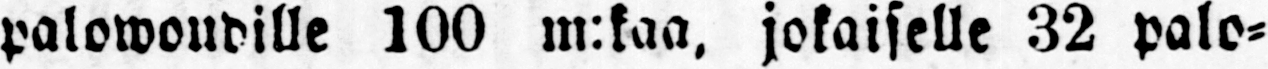palowoudille 100 m:kaa, jokaiselle 32 palo-
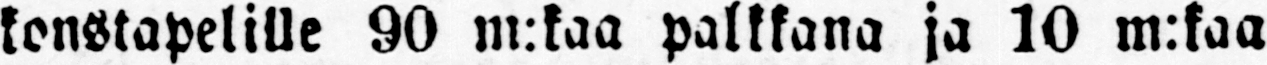kenstapelille 90 m:kaa palkkana ja 10 m:kaa
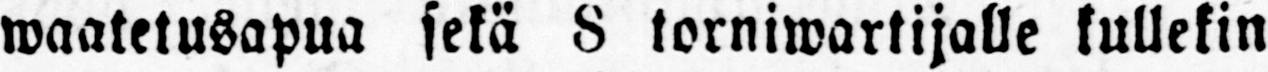waatetusapua sekä 8 torniwartijalle kullekin
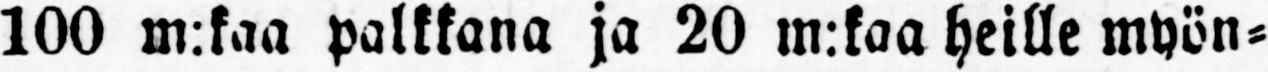100 m:kaa palkkana ja 20 m:kaa heille myön-
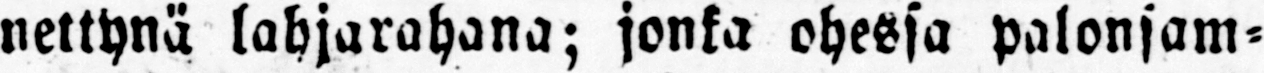nettynä lahjarahana; jonka ohessa palonsam-
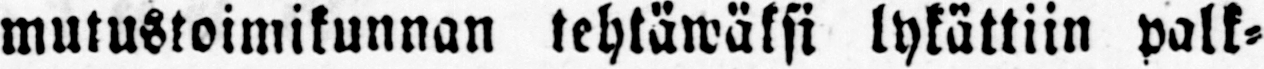mutustoimikunnan tehtäwäksi lykättiin palk-
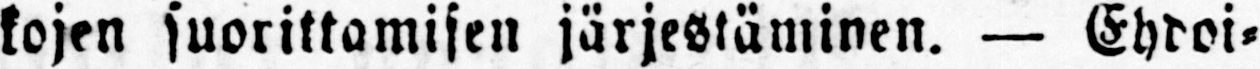kojen suorittamisen järjestäminen. — Ehdoi-
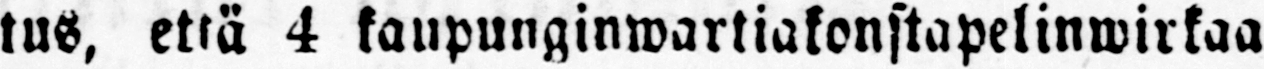tus, että 4 kaupunginwartiakonstapelinwirkaa
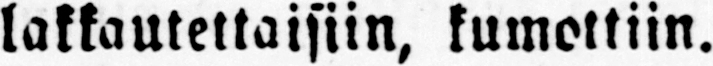lakkautettaisiin, kumottiin.
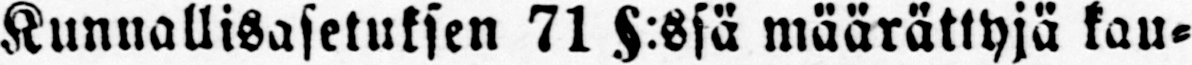Kunnallisasetuksen 71 §:ssä määrättyjä kau-
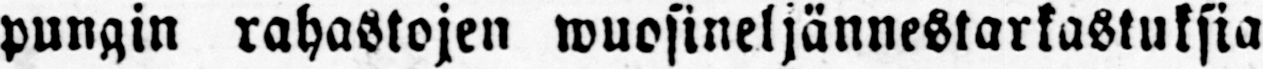pungin rahastojen wuosineljännestarkastuksia
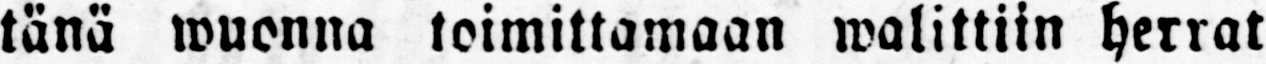tänä wuonna toimittamaan walittiin herrat
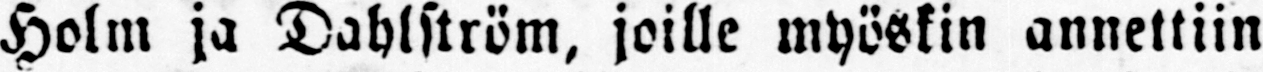Holm ja Dahlström, joille myöskin annettiin
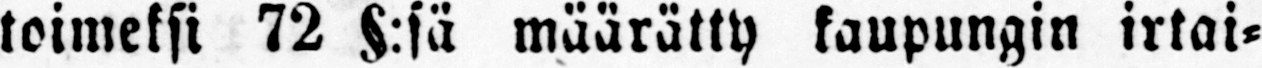toimeksi 72 §:sä määrätty kaupungin irtai-
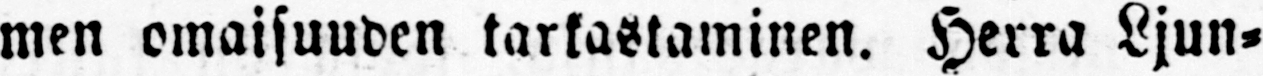men omaisuuden tarkastaminen. Herra Ljun-
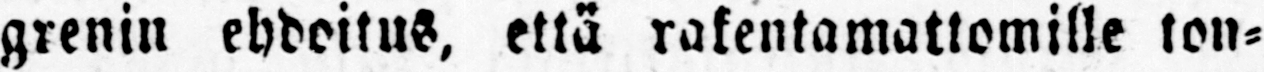grenin ehdoitus, että rakentamattomille ton-
